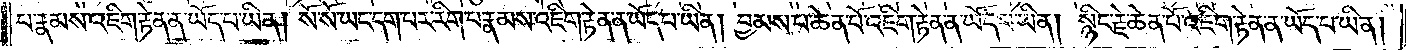པ་རྣམས་འཇིག་རྟེན་ན་ཡོད་བ་ཡིན། སོ་སོ་ཡང་དག་པར་རིག་པ་རྣམས་འཇིག་རྟེན་ན་ཡོད་པ་ཡིན། བྱམས་པ་ཆེན་པོ་འཇིག་རྟེན་ན་ཡོད་བ་ཡིན། སྙིང་རྗེ་ཆེན་པོ་འཇིག་རྟེན་ན་ཡོད་པ་ཡིན།
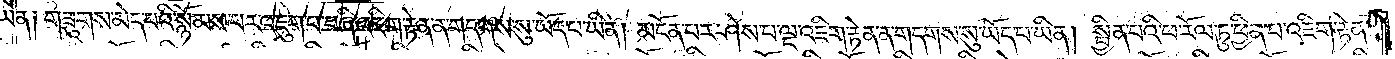ཡིན༑ གཟུགས་མེད་པའི་སྙོམས་པར་འཇུག་པ་བཞི་འཇིག་རྟེན་ན་གདགས་སུ་ཡོད་པ་ཡིན། མངོན་པར་ཤེས་པ་ལྔ་འཇིག་རྟེན་ན་གདགས་སུ་ཡོད་པ་ཡིན། སྦྱིན་པའི་ཕ་རོལ་ཏུ་ཕྱིན་པ་འཇིག་རྟེན་
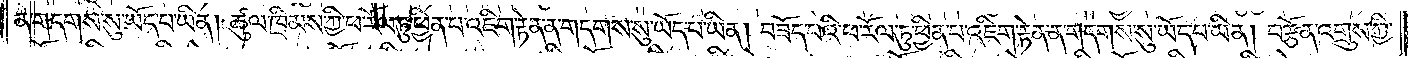ན་གདགས་སུ་ཡོད་པ་ཡིན། ཚུལ་ཁྲིམས་ཀྱི་ཕ་རོལ་ཏུ་ཕྱིན་པ་འཇིག་རྟེན་ན་གདགས་སུ་ཡོད་པ་ཡིན། བཟོད་པའི་ཕ་རོལ་ཏུ་ཕྱིན་པ་འཇིག་རྟེན་ན་གདགས་སུ་ཡོད་པ་ཡིན། བརྩོན་འགྲུས་ཀྱི་
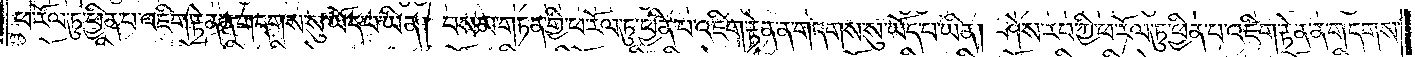ཕ་རོལ་ཏུ་ཕྱིན་པ་འཇིག་རྟེན་ན་གདགས་སུ་ཡོད་པ་ཡིན། བསམ་གཏན་གྱི་ཕ་རོལ་ཏུ་ཕྱིན་པ་འཇིག་རྟེན་ན་གདགས་སུ་ཡོད་པ་ཡིན། ཤེས་རབ་ཀྱི་ཕ་རོལ་ཏུ་ཕྱིན་པ་འཇིག་རྟེན་ན་གདགས་
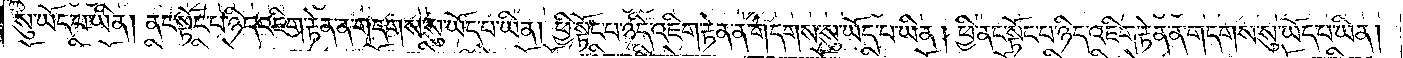སུ་ཡོད་པ་ཡིན། ནང་སྟོང་པ་ཉིད་འཇིག་རྟེན་ན་གདགས་སུ་ཡོད་པ་ཡིན། ཕྱི་སྟོང་པ་ཉིད་འཇིག་རྟེན་ན་གདགས་སུ་ཡོད་པ་ཡིན། ཕྱི་ནང་སྟོང་པ་ཉིད་འཇིག་རྟེན་ན་གདགས་སུ་ཡོད་པ་ཡིན།
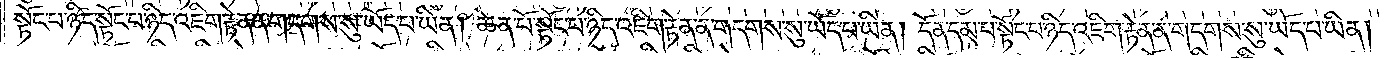སྟོང་པ་ཉིད་སྟོང་པ་ཉིད་འཇིག་རྟེན་ན་གདགས་སུ་ཡོད་པ་ཡིན། ཆེན་པོ་སྟོང་པ་ཉིད་འཇིག་རྟེན་ན་གདགས་སུ་ཡོད་པ་ཡིན། དོན་དམ་པ་སྟོང་པ་ཉིད་འཇིག་རྟེན་ན་གདགས་སུ་ཡོད་པ་ཡིན།
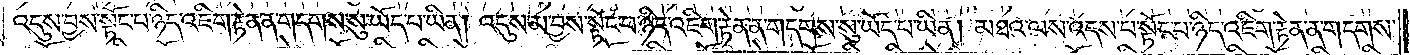འདུས་བྱས་སྟོང་པ་ཉིད་འཇིག་རྟེན་ན་གདགས་སུ་ཡོད་པ་ཡིན། འདུས་མ་བྱས་སྟོང་པ་ཉིད་འཇིག་རྟེན་ན་གདགས་སུ་ཡོད་པ་ཡིན། མཐའ་ལས་འདས་བ་སྟོང་པ་ཉིད་འཇིག་རྟེན་ན་གདགས་
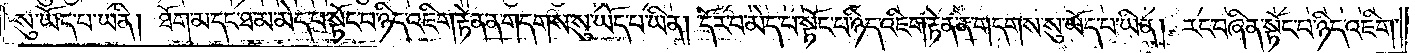སུ་ཡོད་པ་ཡིན། ཐོག་མ་དང་ཐ་མ་མེད་པ་སྟོང་པ་ཉིད་འཇིག་རྟེན་ན་གདགས་སུ་ཡོད་པ་ཡིན། དོར་བ་མེད་པ་སྟོང་པ་ཉིད་འཇིག་རྟེན་ན་གདགས་སུ་ཡོད་པ་ཡིན། རང་བཞིན་སྟོང་པ་ཉིད་འཇིག་
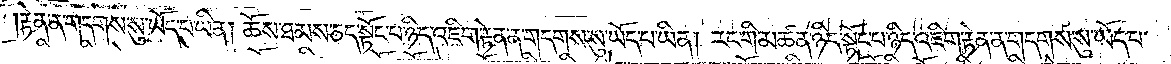རྟེན་ན་གདགས་སུ་ཡོད་པ་ཡིན། ཆོས་ཐམས་ཅད་སྟོང་པ་ཉིད་འཇིག་རྟེན་ན་གདགས་སུ་ཡོད་པ་ཡིན། རང་གི་མཚན་ཉིད་སྟོང་པ་ཉིད་འཇིག་རྟེན་ན་གདགས་སུ་ཡོད་པ་
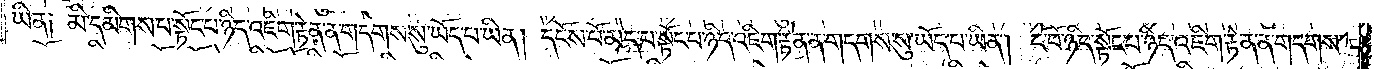ཡིན། མི་དམིགས་པ་སྟོང་པ་ཉིད་འཇིག་རྟེན་ན་གདགས་སུ་ཡོད་པ་ཡིན། དངོས་པོ་མེད་པ་སྟོང་པ་ཉིད་འཇིག་རྟེན་ན་གདགས་སུ་ཡོད་པ་ཡིན། ངོ་བོ་ཉིད་སྟོང་པ་ཉིད་འཇིག་རྟེན་ན་གདགས་
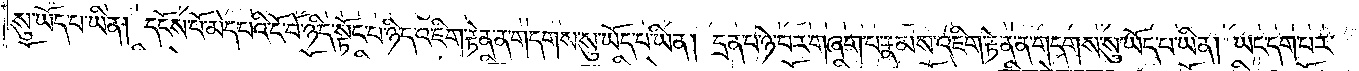སུ་ཡོད་པ་ཡིན། དངོས་པོ་མེད་པའི་ངོ་བོ་ཉིད་སྟོང་པ་ཉིད་འཇིག་རྟེན་ན་གདགས་སུ་ཡོད་པ་ཡིན། དྲན་པ་ཉེ་བར་གཞག་པ་རྣམས་འཇིག་རྟེན་ན་གདགས་སུ་ཡོད་པ་ཡིན། ཡང་དག་པར་
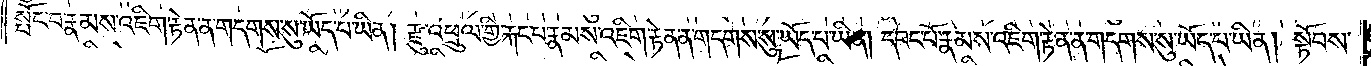སྤོང་བ་རྣམས་འཇིག་རྟེན་ན་གདགས་སུ་ཡོད་པ་ཡིན། རྫུ་འཕྲུལ་གྱི་རྐང་པ་རྣམས་འཇིག་རྟེན་ན་གདགས་སུ་ཡོད་པ་ཡིན། དབང་པོ་རྣམས་འཇིག་རྟེན་ན་གདགས་སུ་ཡོད་པ་ཡིན། སྟོབས་
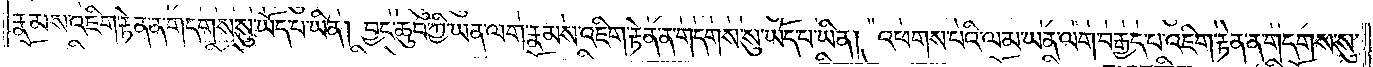རྣམས་འཇིག་རྟེན་ན་གདགས་སུ་ཡོད་པ་ཡིན། བྱང་ཆུབ་ཀྱི་ཡན་ལག་རྣམས་འཇིག་རྟེན་ན་གདགས་སུ་ཡོད་པ་ཡིན། འཕགས་པའི་ལམ་ཡན་ལག་བརྒྱད་པ་འཇིག་རྟེན་ན་གདགས་སུ་
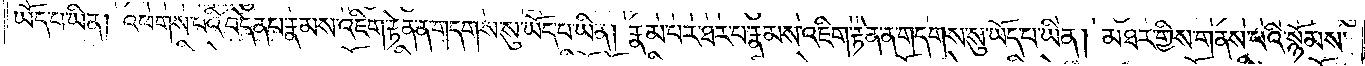ཡོད་པ་ཡིན། འཕགས་པའི་བདེན་པ་རྣམས་འཇིག་རྟེན་ན་གདགས་སུ་ཡོད་པ་ཡིན། རྣམ་པར་ཐར་པ་རྣམས་འཇིག་རྟེན་ན་གདགས་སུ་ཡོད་པ་ཡིན། མཐར་གྱིས་གནས་པའི་སྙོམས་
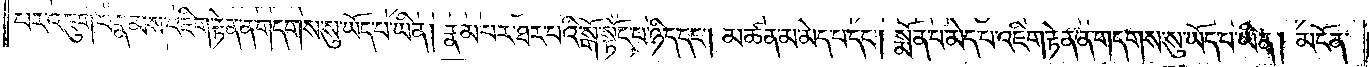པར་འཇུག་པ་རྣམས་འཇིག་རྟེན་ན་གདགས་སུ་ཡོད་པ་ཡིན། རྣམ་པར་ཐར་པའི་སྒོ་སྟོང་པ་ཉིད་དང༌། མཚན་མ་མེད་པ་དང༌། སྨོན་པ་མེད་པ་འཇིག་རྟེན་ན་གདགས་སུ་ཡོད་པ་ཡིན། མངོན་
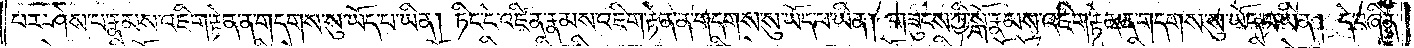པར་ཤེས་པ་རྣམས་འཇིག་རྟེན་ན་གདགས་སུ་ཡོད་པ་ཡིན། ཏིང་ངེ་འཛིན་རྣམས་འཇིག་རྟེན་ན་གདགས་སུ་ཡོད་པ་ཡིན། གཟུངས་ཀྱི་སྒོ་རྣམས་འཇིག་རྟེན་ན་གདགས་སུ་ཡོད་པ་ཡིན། དེ་བཞིན་
